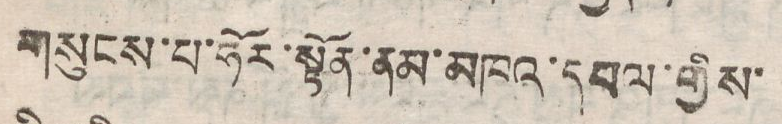གསུངས་པ་ཧོར་སྟོན་ནམ་མཁའ་དཔལ་གྱིས་
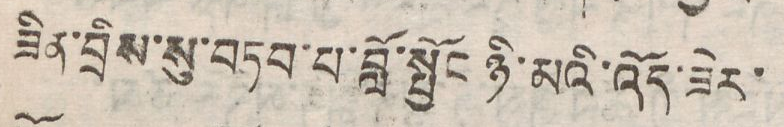ཟིན་བྲིས་སུ་བཏབ་པ་བློ་སྦྱོང་ཉི་མའི་འོད་ཟེར་
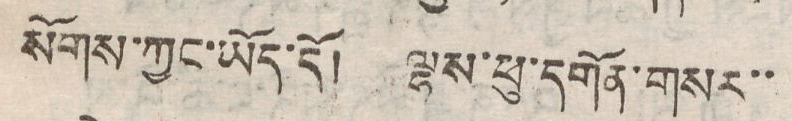སོགས་ཀྱང་ཡོད་དོ། ལྷས་ཕུ་དགོན་གསར་་
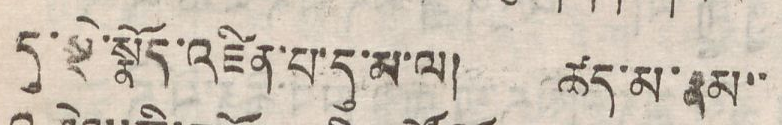དུ་སྡེ་སྣོད་འཛིན་པ་དུ་མ་ལ། ཚད་མ་རྣམ་་
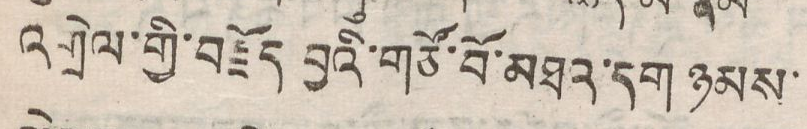འགྲེལ་གྱི་བརྗོད བྱའི་གཙོ་བོ་མཐའ་དག ཉམས་
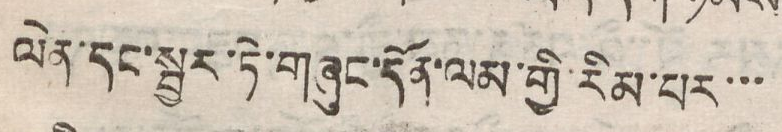ལེན་དང་སྦྱར་ཏེ་གཞུང་དོན་ལམ་གྱི་རིམ་པར་་་
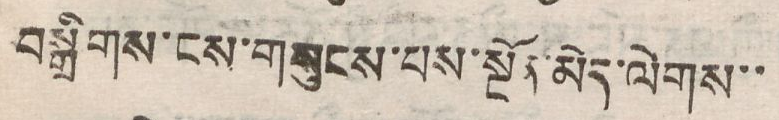བསྒྲིགས་ངས་གསུངས་པས་སྔོན་མེད་ལེགས་་
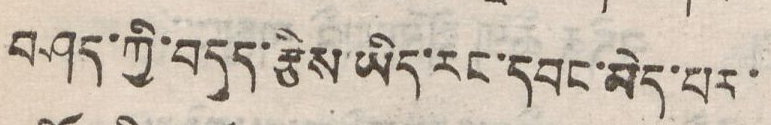བཤད་ཀྱི་བདུད་རྩིས་ཡིད་རང་དབང་མེད་པར་
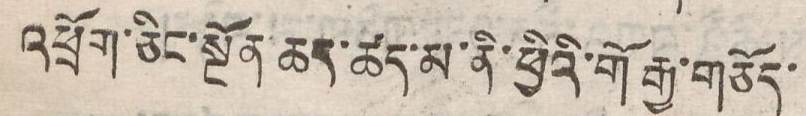འཕྲོག་ཅིང་སྔོན་ཆད་ཚད་མ་ནི་ཕྱིའི་གོ་རྒྱ་གཅོད་
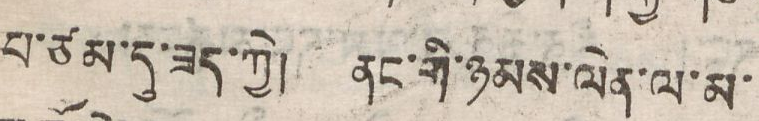པ་ཙམ་དུ་ཟད་ཀྱི། ནང་གི་ཉམས་ལེན་ལ་མ་
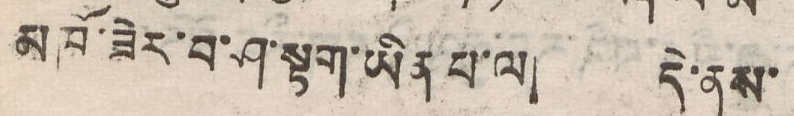མ་ཁོ་ཟེར་བ་ཤ་སྟག་ཡིན་ལ། དེ་ནས་
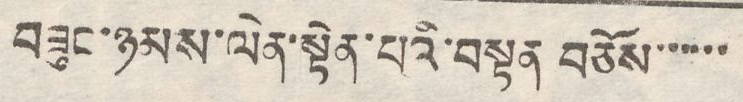བཟུང་ཉམས་ལེན་སྟེན་པའི་བསྟན བཅོས་་་་་་
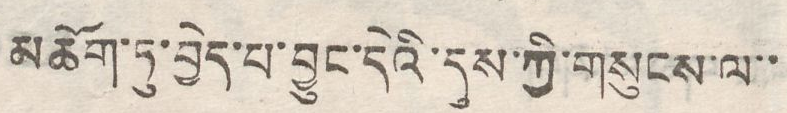མཆོག་ཏུ་བྱེད་པ་བྱུང་དེའི་དུས་ཀྱི་གསུངས་ལ་
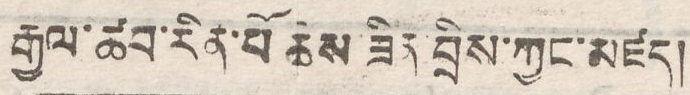རྒྱལ་ཚབ་རིན་པོ ཆེས་ཟིན་བྲིས་ཀྱང་མཛད།
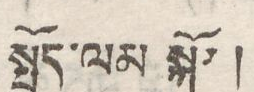སྤྱོད་ལམ་སྐོར།
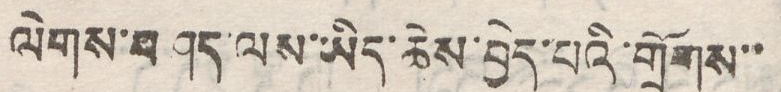ལེགས་བཤད་ལས་ཡོད་ཆེས་བྱེད་པའི་གྲོགས་་
